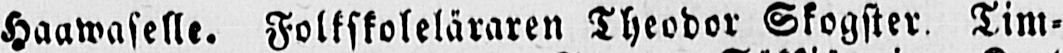Haawaselle. Folkskoleläraren Theodor Skogster. Tim-
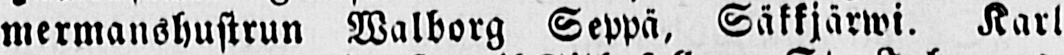mermanshustrun Walborg Seppä, Säkkjärwi. Karl
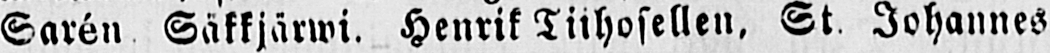Sarén Säkkjärwi. Henrik Tiihosellen, St Johannes
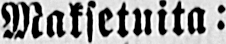Maksetuita:
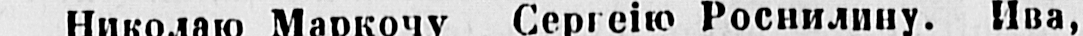Николоаю Маркочу Серriю Роснилину. Ива,
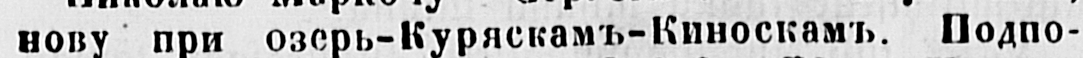нову при озерь-Куряскамъ-Киноскамъ. Подпо-
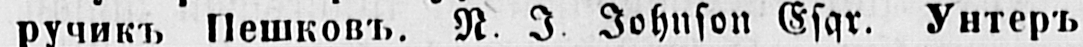ручикъ Пешкoвъ. N. I. Johnson Esqr. Унтеръ
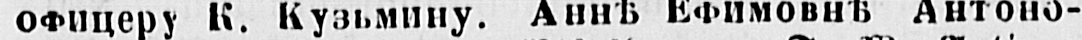оФицеру К. Кузьмину. АннѢ АннѢ ЕФимовнѢ Антоно-
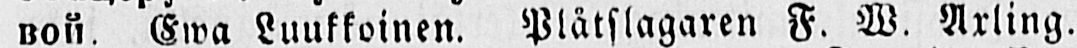вой Ewa Lukkoinen. Plåtslagaren F. W. Arling.
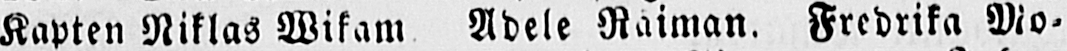Kapten Niklas Wikam. Adele Raiman. Fredrika Mo-
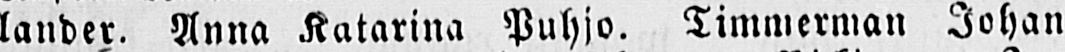lander. Anna Katarina Puhio. Timmerman Johan
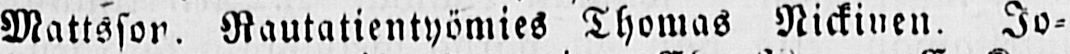Mattsson. Rautatientyömies Thomas Nickinen. Jo-
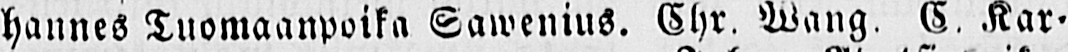hannes Tuomaanpoika Sawenius. Chr. Wang C Kar-
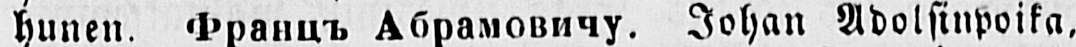hunen Францъ Абрамовичу Johan Adolsinpoika.
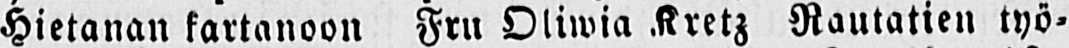Hietanan kartanoon Fru Oliwia Kretz Rautatien työ-
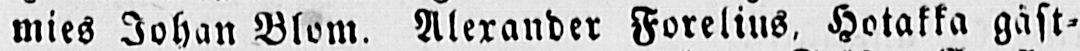mies Johan Blow. Alexander Forelius, Hotakka gäst-
